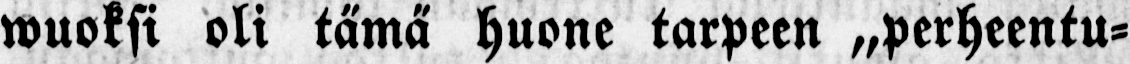wuoksi oli tä mä huone tarpeen „perheentu-
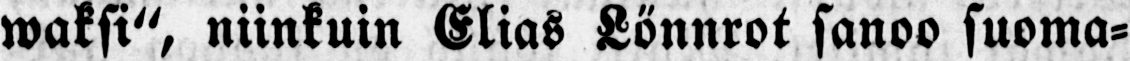waksiˮ, niinkuin Elias Lönnrot sanoo suoma-
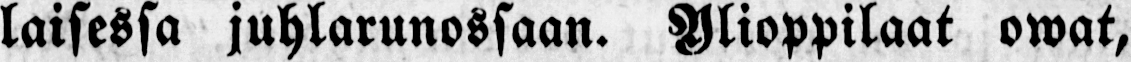laisessa juhlarunossaan. Ylioppilaat owat,
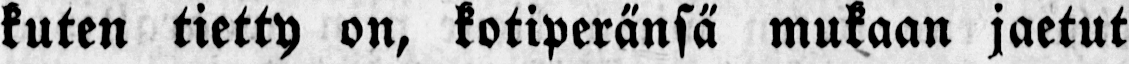kuten tietty on, kotiperänsä mukaan jaetut
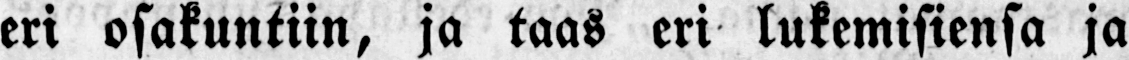eri osakuntiin, ja taas eri lukemisiensa ja
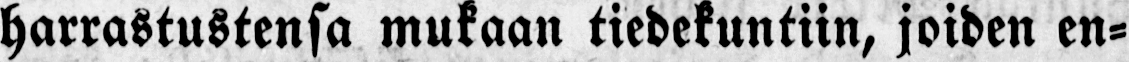harrastustensa mukaan tiedekuntiin, joiden en-
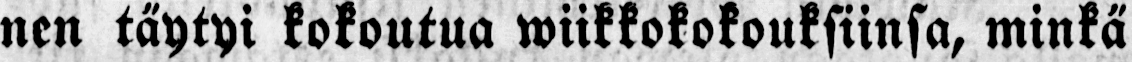nen täytyi kokoutua wiikkokokouksiinsa, minkä
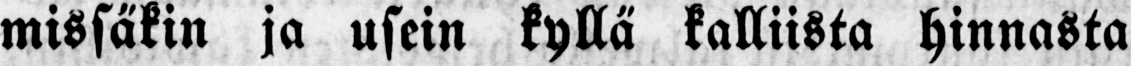missä kin ja usein kyllä kalliista hinnasta
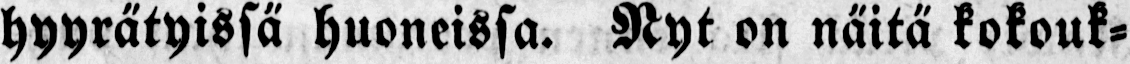hyyrä tyissä huoneissa. Nyt on näitä kokouk-
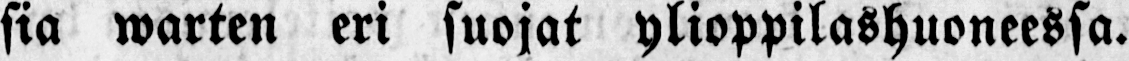sia warten eri suojat ylioppilashuoneessa.
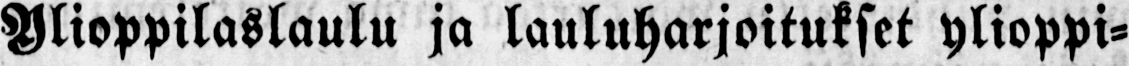Ylioppilaslaulu ja lauluharjoitukset ylioppi-
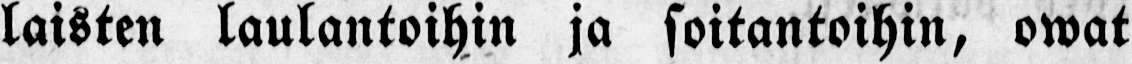laisten laulantoihin ja soitantoihin, owat
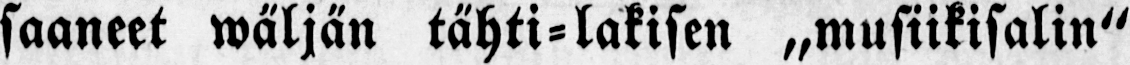saaneet wäljän tähti-lakisen „musiikisalinˮ
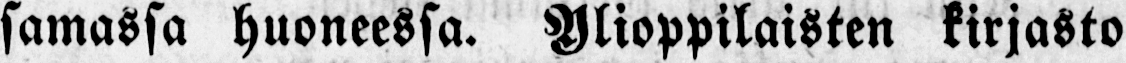samassa huoneessa. Ylioppilaisten kirjasto
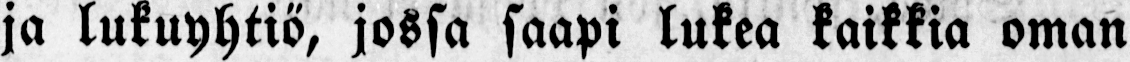ja lukuyhtiö, jossa saapi lukea kaikkia oman
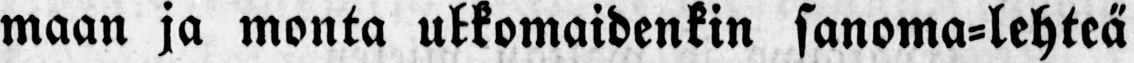maan ja monta ukkomaidenkin sanoma-lehteä
